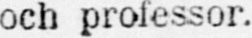och professor.
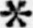*
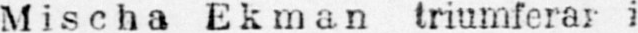Mischa Ekman triumferar i
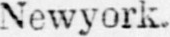Newyork.
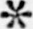*
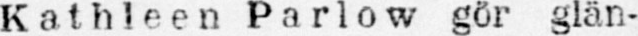Kathleen Parlow gör glän-
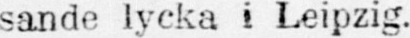sande lycka i Leipzig.
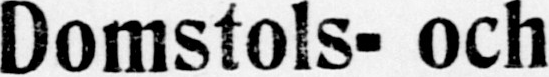Domstols- och
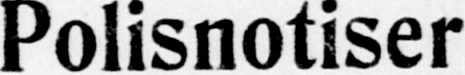Polisnotiser
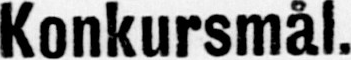Konkursmål.
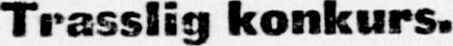Trasslig konkurs.
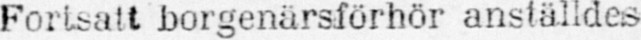Fortsatt borgenärsförhör anställdes
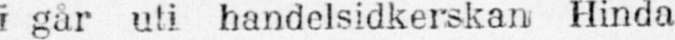i går uti handelsidkerskan Hinda
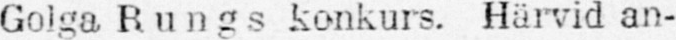Golga Rungs konkurs. Härvid an-
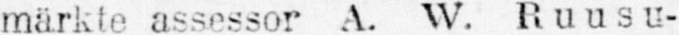märkte assessor A. W. Ruusu-
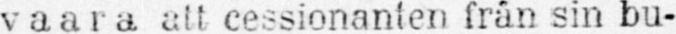vaara att cessionanten från sin bu-
